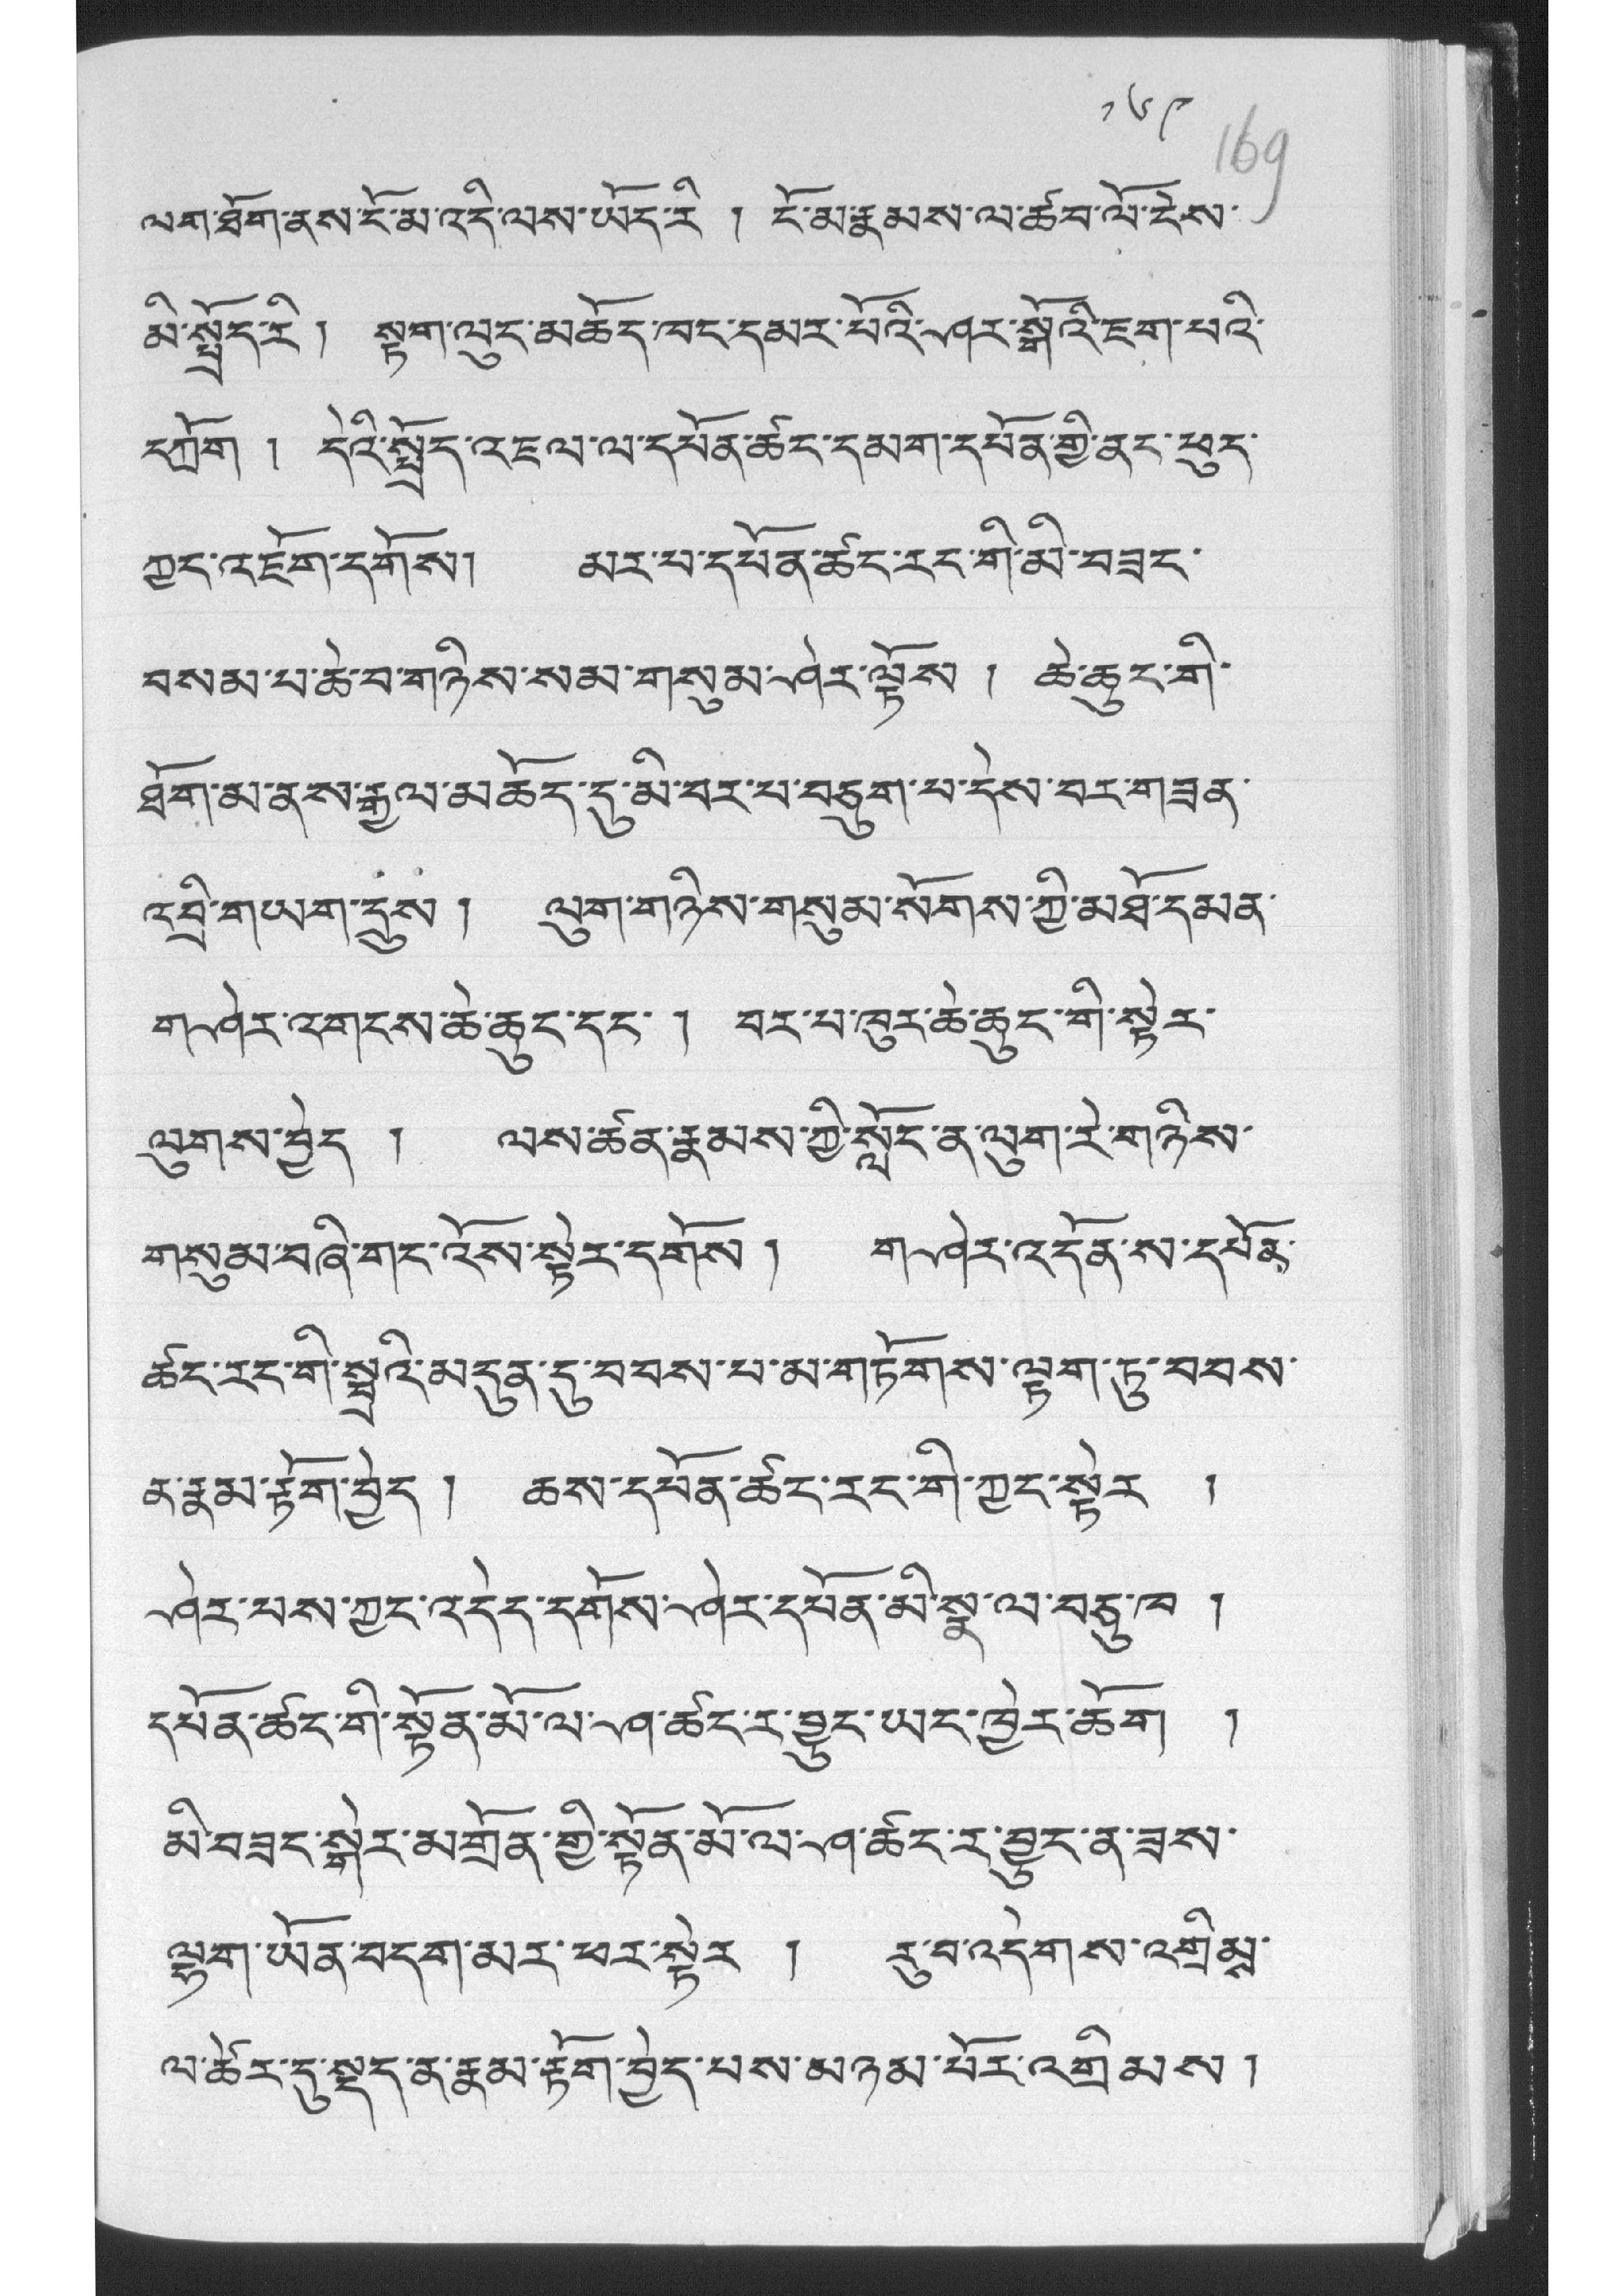༡༦༩
ལག་ཐོག་ནས་ངོ་མ་འདི་ལས་ཡོད་རི ། ངོ་མ་རྣམས་ལ་ཚབ་ལོ་ངེས་
མི་སྤྲོད་རི། སྟག་ལུང་མཆོད་ཁང་དམར་པོའི་ཤར་སྒོའི་ཇག་པའི་
དཀྲོག ། དེའི་སྤྲོད་འཇལ་ལ་དཔོན་ཚང་དམག་དཔོན་གྱི་ནང་ཕུད་
ཀྱང་འཇོག་དགོས། མར་པ་དཔན་ཚང་རང་གི་མི་བཟང་
བསམ་པ་ཆེ་བ་གཉིས་སམ་གསུམ་ཤེར་ལྟོས ། ཆེ་ཆུང་གི་
ཐོག་མ་ནས་རྒྱལ་མཆོད་དུ་མི་བར་པ་བཅུག་པ་དེས་བར་གཟན་
འབྲི་གཡག་དྲུས ། ལུག་གཉིས་གསུམ་སོགས་ཀྱི་མཐོ་དམན་
གཤེར་འགངས་ཆེ་ཆུང་དང་ ། བར་པ་ཁུར་ཆེ་ཆུང་གི་སྟེར་
ལུགས་བྱེད ། ལས་ཚན་རྣམས་ཀྱི་སློང་ན་ལུག་རེ་གཉིས་
གསུམ་བཞི་གང་འོས་སྟེར་དགོས། གཤེར་འདོན་ས་དཔོན་
ཚང་རང་གི་སྦྲའི་མདུན་དུ་བབས་པ་མ་གཏོགས་ལྟག་ཏུ་བབས་
ན་རྣམ་རྟོག་བྱེད ། ཆས་དཔོན་ཚང་རང་གི་ཀྱང་སྟེར །
ཤེར་པས་ཀྱང་འདེད་དགོས་ཤེར་དཔོན་མི་སྣ་ལ་བཅུ་ཁ །
དཔོན་ཚང་གི་སྟོན་མོ་ལ་ཤ་ཚང་ར་བྱུང་ཡང་ཁྱེར་ཆོག །
མི་བཟང་སྒེར་མགྲོན་གྱི་སྟོན་མོ་ལ་ཤ་ཚང་ར་བྱུང་ན་ཟས་
ལྷག་ཡོན་བདག་མར་ཕར་སྟེར ། རུ་བ་འདེགས་འགྲིམས་
ལ་ཚེར་དུ་སྡུད་ན་རྣམ་རྟོག་བྱེད་པས་མཉམ་པོར་འགྲིམས །
